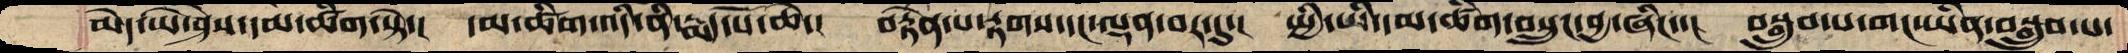མེད་ཡེ་ཤེས་དམ་ཚིག་སྟེ་།  དམ་ཚིག་འདི་ནི་རྨད་པོ་ཆེ་།  བརྟེན་པ་རྟགས་དང་ལྡན་བར་དུ་།  སྤྱི་ཡི་དམ་ཚིག་བསྲུང་བྱ་ཞིང་་།  བསྒྲུབ་པ་གང་ཡིན་བསྒྲུབ་པ་
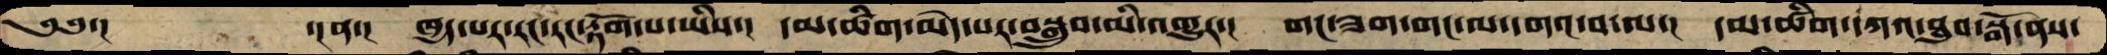༄༅་།     ་།ན་།  ཁྱད་པར་རང་རང་རྟོག་པ་ཡིས་།  དམ་ཚིག་མེད་པར་བསྒྲུབ་མི་འགྱུར་།  གང་ཟག་གང་ལ་དགའ་བ་ལ་།  དམ་ཚིག་དཀའ་ཐུབ་སྒོ་ནས་
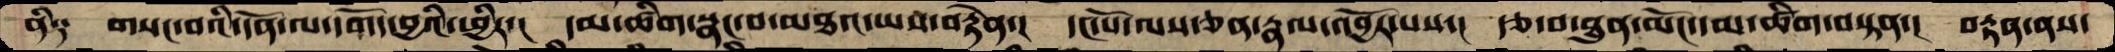ནི༑  གསང་བའི་དོན་ལ་དགོད་བྱའི་ཕྱིར་།  དམ་ཚིག་སྣང་བ་མཐའ་ཡས་བརྟེན་།  དང་པོ་ལས་ཅན་རྣལ་འབྱོར་པས་།  རྩ་བ་ཐུན་མོང་དམ་ཚིག་བསྟན་།  བརྟན་ནས་
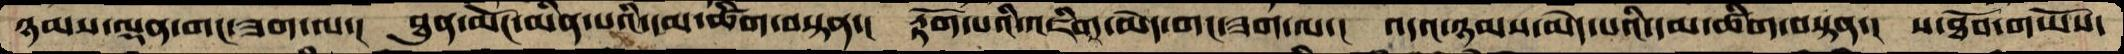ཉམས་ལྡན་གང་ཟག་ལ་། ཐུན་མོང་མིན་པའི་དམ་ཚིག་བསྟན་། རྟོག་པའི་འཇིགས་མེད་གང་ཟག་ལ་། འདའ་ཉམས་མེད་པའི་དམ་ཚིག་བསྟན་། ས་ཐོབ་གཡོས་
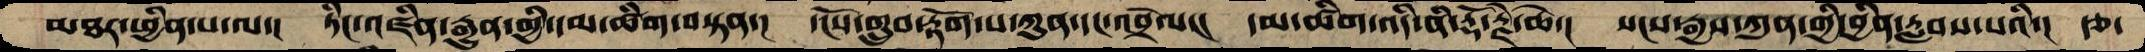མཐར་ཕྱིན་པ་ལ་།  ཏིང་འཛིན་རྒྱུན་གྱི་དམ་ཚིག་བསྟན་།  དངོས་གྲུབ་རྟོག་པ་ཀུན་དང་འབྲེལ།། དམ་ཚིག་འདི་ནི་རྡོ་རྗེ་ཆེ་།  སངས་རྒྱས་ཀུན་གྱི་བྱིན་རླབས་པའི་།  རྩ་
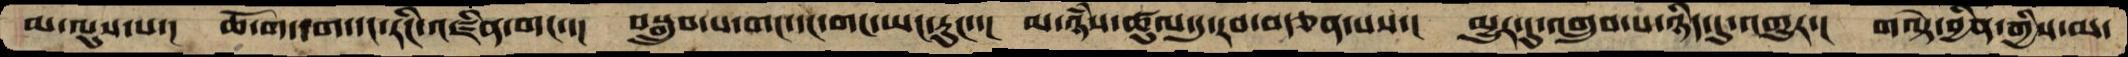མ་ལུས་པ་།  ཆོ་ག་དག་དང་ཏིང་འཛིན་གང་་།  བསྒྲུབ་པ་གང་དང་གང་ཡང་རུང་་།  མ་ཉཾས་ཚུལ་དུ་རབ་བརྩན་པས་།  མྱུར་དུ་འགྲུབ་པ་ཉིད་དུ་འགྱུར་།  གལྟེ་བྱིན་གྱིས་མ་
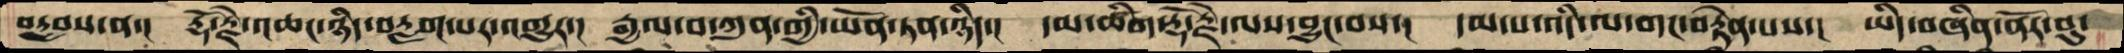བརླབས་ན་།  རྡོ་རྗེ་འཆང་ཉིད་བརླག་པར་འགྱུར་།  རྒྱལ་བ་ཀུན་གྱི་ཡོན་ཏན་ཉིད་།  དམ་ཚིག་རྡོ་རྗེ་ལས་བྱུང་བས་།  དམ་པ་འདི་ལ་གང་བརྟེན་པས་།   ཡིད་བཞིན་ནོར་བུ་
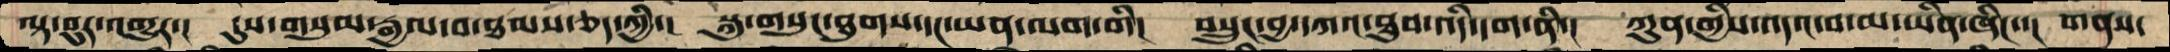ལྟ་བུར་འགྱུར་།  དུས་གསུམ་རྒྱལ་བ་ཐམས་ཅད་ཀྱི་།  སྐུ་གསུང་ཐུགས་དང་ཡན་ལག་གི་།  བསྲུང་བྱ་དཀའ་ཐུབ་འདི་དག་ནི་།  ཀུན་གྱིས་འདའ་བ་མ་ཡིན་ཞིང་་།  གནས་
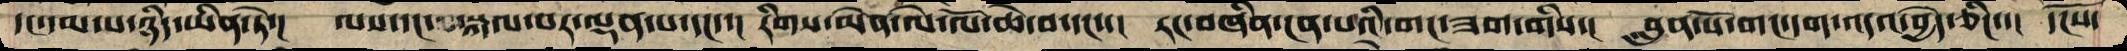དང་དམ་པ་ཉིད་ཡིན་ཏེ་།  ལས་དང་སྐལ་པར་ལྡན་པ་དང་་།  རིགས་མེན་ལེ་ལོ་ཆེ་བ་དང་་།  རང་བཞིན་ངན་པའི་གང་ཟག་གིས་།  བླུན་པོ་གང་དག་འདའ་བྱེད་ཅིང་་།  དངོས་
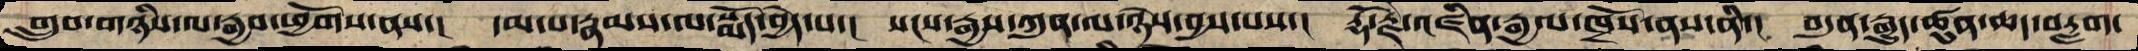གྲུབ་གཉིས་ལ་རྒྱབ་ཕྱོགས་ནས་།  དམ་པ་རྣམས་ལ་སྨོད་བྱེད་པ་།  སངས་རྒྱས་ཀུན་ལ་ཉེས་བྱས་པས་།  རྡོ་རྗེ་འཛིན་རྒྱལ་ཁྲོས་ནས་ནི་།  བདུན་རྒྱུད་ཚུན་ཆད་བརླག་
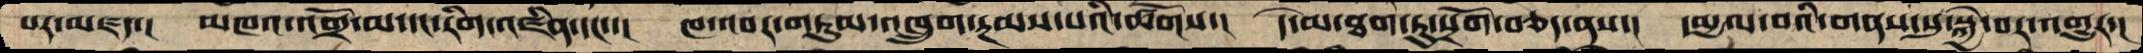པར་མཛད་།  མཁའ་འགྲོ་མ་དང་རིག་འཛིན་དང་་།  ཁ་འབར་གཏུམ་འཁྲུག་རྔམས་པའི་ཚོགས།  དེ་མ་ཐག་ཏུ་སྲོག་བཅད་ནས་།  དམྱལ་བའི་གནས་སུ་སྐྱེ་བར་འགྱུར་།
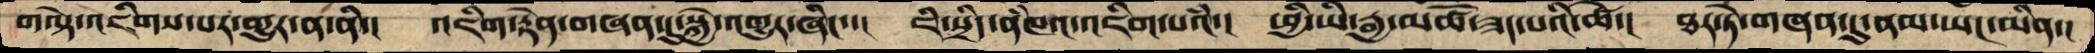གལྟེ་འཇིགས་པར་གྱུར་ན་ནི་།  འཇིག་རྟེན་གཞན་དུ་སྐྱེ་འགྱུར་ཞིང་་།  ཇི་སྲིད་ནཾཁའ་འཇིག་པའཾ་།  ཕྱི་ཡི་རྒྱ་མཚོ་ཟད་པའི་ཚེ་།  ཐར་ཏེ་གཞན་དུ་ནམ་ཡང་མིན་།
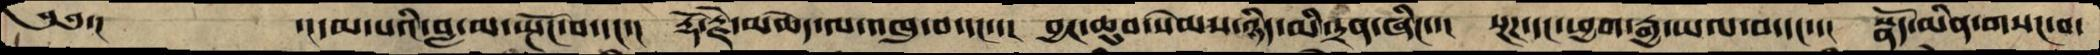༄༅་།     ་།དམ་པའི་བླ་མ་སྤོང་བ་དང་་།  རྡོ་རྗེ་མཆེད་ལ་འཁུ་བ་དང་་།  བྱང་ཆུབ་སེམས་ཉིད་མི་དྲན་ཞིང་་།  སྔཌ་དང་ཕྱག་རྒྱ་ཡལ་བ་དང་་།  སྣོད་མིན་གསང་བ་
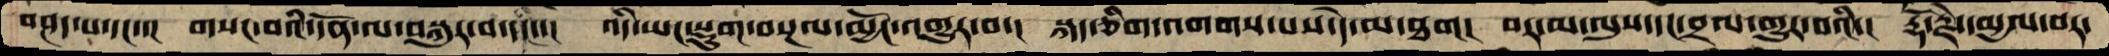བཤད་པ་དང་་།  གསང་བའི་དོན་ལ་བསྐུར་བ་དང་་།  འདི་ཡང་སྡུག་བསྔལ་མྱོང་འགྱུར་བ་།  སྐད་ཅིག་འགགས་པས་དེ་མ་ཐག།  བར་མ་ལུས་དང་བྲལ་གྱུར་བའི་།  རྡོ་རྗེ་དམྱལ་བར་
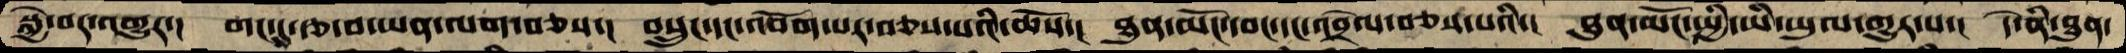སྐྱེ་བར་འགྱུར་།  གང་དུ་རྩ་བ་ཡན་ལག་བཅས་།  བསྲུང་དང་འབོག་པར་བཅས་པའི་ཆོས་།  ཐུན་མོང་དབང་དང་འབྲེལ་བཅས་པའི་།  ཐུན་མོང་སྤྱི་ཡི་ཡུལ་གྱུར་པ་།  དེ་ནི་ཐུན་
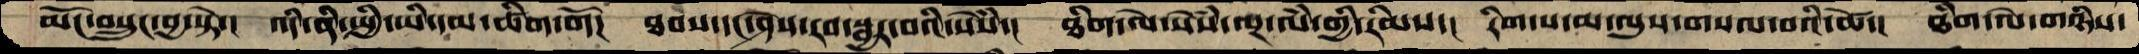མོང་བསྲུང་བྱ་སྟེ་།  འདི་ནི་སྤྱི་ཡི་དམ་ཚིག་གོ་།  ཐབས་དང་ཤེས་རབ་སྦྱང་བའི་སེཾས་།  ཐིག་ལེ་སེཾས་ལྔ་ལཾ་གྱི་རིམ་།  རིག་པ་མ་ལུས་གསལ་བའི་ཚེ་།  ཐིག་ལེ་གཉིས་
